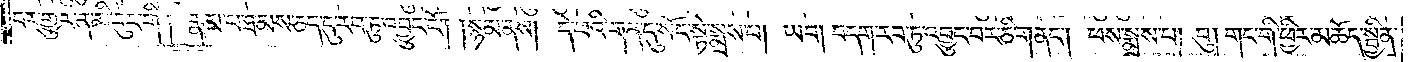བར་གྱུར་ན་མི་རུང་གི །རྣམ་པ་ཐམས་ཅད་དུ་རབ་ཏུ་འབྱུང་ངོ༌། །སྙམ་ནས། དེ་ཕའི་གན་དུ་སོང་སྟེ་སྨྲས་པ། ཡབ་།བདག་རབ་ཏུ་འབྱུང་བར་ཅི་གནང༌། ཕས་སྨྲས་པ། བུ། གང་གི་ཕྱིར་མཆོད་སྦྱིན་
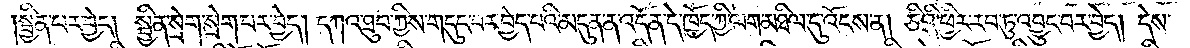སྦྱིན་པར་བྱེད། སྦྱིན་སྲེག་སྲེག་པར་བྱེད། དཀའ་ཐུབ་ཀྱིས་གདུང་བར་བྱེད་པའི་མདུན་ན་འདོན་དེ་ཁྱོད་ཀྱི་ལག་མཐིལ་དུ་འོངས་ན། ཅིའི་ཕྱིར་རབ་ཏུ་འབྱུང་བར་བྱེད། དེས་
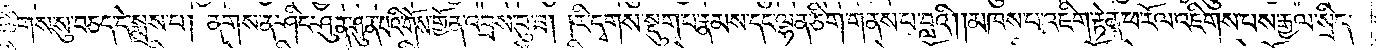ཚིགས་སུ་བཅད་དེ་སྨྲས་པ། ནགས་ན་ཤིང་ཤུན་ཤུན་པའི་གོས་གྱོན་འབྲས་བུ་ཟ། །རི་དྭགས་སྡུག་པ་རྣམས་དང་ལྷན་ཅིག་གནས་པ་བླའི། །མཁས་པ་འཇིག་རྟེན་ཕ་རོལ་འཇིགས་པས་རྒྱལ་སྲིད་
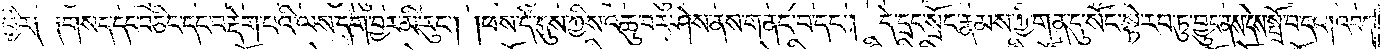ཕྱིར། །གསད་དང་བཅིང་དང་བརྡེག་པའི་ལས་དག་བྱར་མི་རུང༌། །ཕས་དེ་དུས་ཀྱིས་འཆུ་བར་ཤེས་ནས་གནང་བ་དང༌། དེ་དྲང་སྲོང་རྣམས་ཀྱི་གན་དུ་སོང་སྟེ་རབ་ཏུ་བྱུང་ནས་དེས་སྤྲོ་བ་དང༌། འབད་
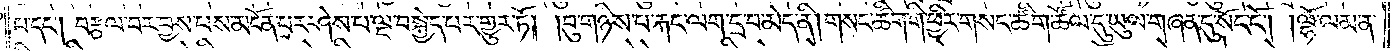པ་དང༌། བརྩལ་བར་བྱས་པས་མངོན་པར་ཤེས་པ་ལྔ་བསྐྱེད་པར་གྱུར་ཏོ། །བུ་གཉིས་པ་རྐང་ལག་དྲ་བ་མེད་ནི། གསང་ཚིག་གི་ཕྱིར་གསང་ཚིག་ཚོལ་དུ་ཡུལ་གཞན་དུ་སོང་ངོ༌། །ལྷོ་ལམ་ན་
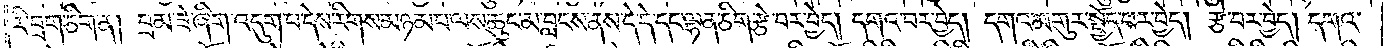རི་བྲག་ཅིག་ན། བྲམ་ཟེ་ཞིག་འདུག་པ་དེས་རིགས་མཉམ་པ་ལས་ཆུང་མ་བླངས་ནས་དེ་དེ་དང་ལྷན་ཅིག་རྩེ་བར་བྱེད། དགའ་བར་བྱེད། དགའ་མགུར་སྤྱོད་པར་བྱེད། རྩེ་བར་བྱེད། དགའ་
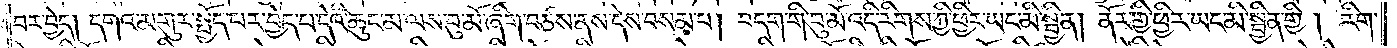བར་བྱེད། དགའ་མགུར་སྤྱོད་པར་བྱེད་པ་དེའི་ཆུང་མ་ལས་བུ་མོ་ཞིག་བཙས་ནས་དེས་བསམ་པ། བདག་གི་བུ་མོ་འདི་རིགས་ཀྱི་ཕྱིར་ཡང་མི་སྦྱིན། ནོར་གྱི་ཕྱིར་ཡང་མི་སྦྱིན་གྱི། རིག་
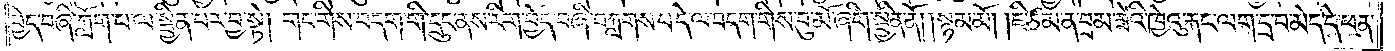བྱེད་བཞི་ཀློག་པ་ལ་སྦྱིན་པར་བྱ་སྟེ། གང་གིས་བདག་གི་དྲུང་ནས་རིག་བྱེད་བཞི་བཀླགས་པ་དེ་ལ་བདག་གིས་བུ་མོ་ཞིག་སྦྱིན་ནོ། །སྙམ་མོ། །ཇི་ཙམ་ན་བྲམ་ཟེའི་ཁྱེའུ་རྐང་ལག་དྲ་བ་མེད་དེ་ཕན་
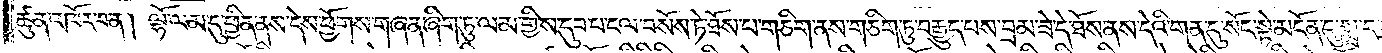ཚུན་འཁོར་བ་ན། ལྷོ་ལམ་དུ་ཕྱིན་ནས་དེས་ཕྱོགས་གཞན་ཞིག་ཏུ་ལམ་གྱིས་དུབ་པ་ངལ་བསོས་ཏེ་ཐོས་པ་གཅིག་ནས་གཅིག་ཏུ་བརྒྱུད་པས་བྲམ་ཟེ་དེ་ཐོས་ནས་དེའི་གན་དུ་སོང་སྟེ་མངོན་དུ་སྨྲ་བ་
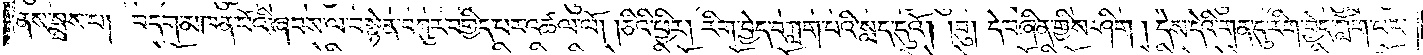ནས་སྨྲས་པ། བདག་མཁན་པོའི་ཞབས་ལ་བསྙེན་བཀུར་བགྱིད་པར་འཚལ་ལོ། །ཅིའི་ཕྱིར། རིག་བྱེད་བཀླག་པའི་སླད་དུའོ། །བུ། དེ་བཞིན་གྱིས་ཤིག །དེས་དེའི་གན་དུ་རིག་བྱེད་ཀློག་པར་
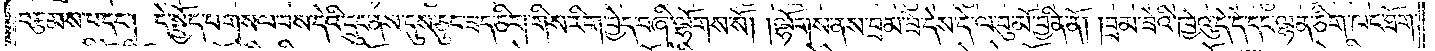བརྩམས་པ་དང༌། དེ་སྤྱོད་པ་གསལ་བས་དེའི་དྲུང་ནས་དུས་ཅུང་ཟད་ཅིག་གིས་རིག་བྱེད་བཞི་ལྷོགས་སོ། །ལྷོགས་ནས་བྲམ་ཟེ་དེས་དེ་ལ་བུ་མོ་བྱིན་ནོ། །བྲམ་ཟེའི་ཁྱེའུ་དེ་དེ་དང་ལྷན་ཅིག་ཁང་ཐོག་
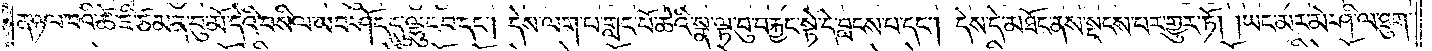ན་ཉལ་བའི་ཚེ་ཇི་ཙམ་ན་བུ་མོ་དེའི་བསིལ་ཡབ་ཤོད་དུ་ལྷུང་བ་དང༌། དེས་ལག་པ་གླང་པོ་ཆེའི་སྣ་ལྟ་བུ་བརྐྱང་སྟེ་དེ་བླངས་པ་དང༌། དེས་དེ་མཐོང་ནས་སྡངས་པར་གྱུར་ཏོ། །ཡང་མར་མེ་ཤི་ལ་ཐུག་
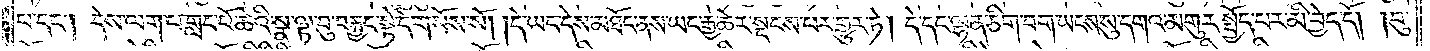པ་དང༌། དེས་ལག་པ་གླང་པོ་ཆེའི་སྣ་ལྟ་བུ་བརྐྱང་སྟེ་དེ་གསོས་སོ། །དེ་ཡང་དེས་མཐོང་ནས་ཡང་རྒྱ་ཆེར་སྡངས་པར་གྱུར་ཏེ། དེ་དང་ལྷན་ཅིག་བག་ཡངས་སུ་དགའ་མགུར་སྤྱོད་པར་མི་བྱེད་དོ། །བུ་
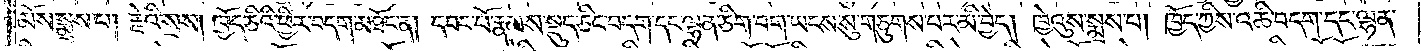མོས་སྨྲས་པ། རྗེའི་སྲས། ཁྱོད་ཅིའི་ཕྱིར་བདག་མཐོང་ན། དབང་པོ་རྣམས་སྡུད་ཅིང་བདག་དང་ལྷན་ཅིག་བག་ཡངས་སུ་གཅུགས་པར་མི་བྱེད། ཁྱེའུས་སྨྲས་པ། ཁྱོད་ཀྱིས་འཆི་བདག་དང་ལྷན་
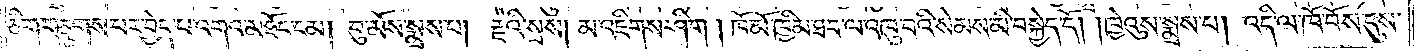ཅིག་གཅུགས་པར་བྱེད་པ་འགའ་མཐོང་ངམ། བུ་མོས་སྨྲས་པ། རྗེའི་སྲས། མ་འཇིགས་ཤིག །ཁོ་མོ་ཁྱིམ་ཐབ་ལ་འཁུ་བའི་སེམས་མི་བསྐྱེད་དོ། །ཁྱེའུས་སྨྲས་པ། འདི་ལ་ཁོ་བོས་དུས་
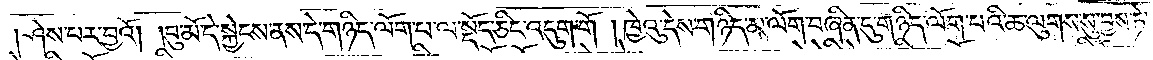ཤེས་པར་བྱའོ། །བུ་མོ་དེ་སྐྱེངས་ནས་དེ་གཉིད་ལོག་པ་ལ་སྡོད་ཅིང་འདུག་གོ །ཁྱེའུ་དེས་གཉིད་མ་ལོག་བཞིན་དུ་གཉིད་ལོག་པའི་ཆ་ལུགས་སུ་བྱས་ཏེ་
